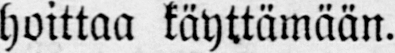hoittaa käyttämään.
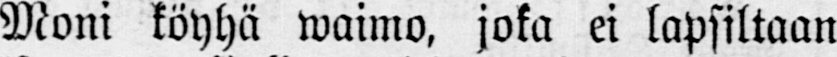Moni köyhä waimo, joka ei lapsiltaan
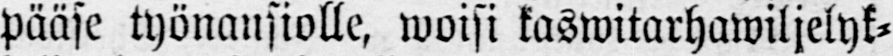pääse työnansiolle, woisi kaswitarhawiljelyk-
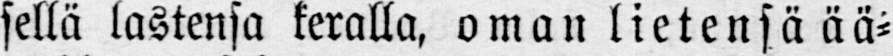sellä lastensa keralla, oman lietensä ää-
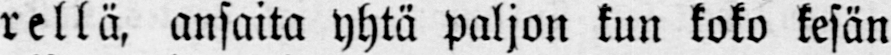rellä, ansaita yhtä paljon kun koko kesän
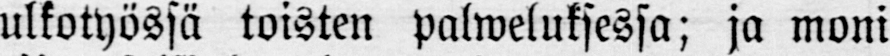ulkotyössä toisten palweluksessa; ja moni
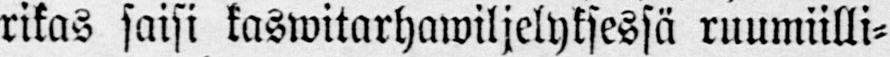rikas saisi kaswitarhawiljelyksessä ruumiilli-
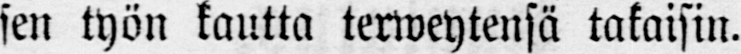sen työn kautta terweytensä takaisin.
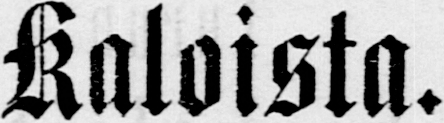Kaloista.
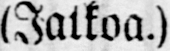(Jalkoa.)
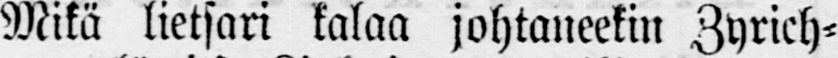Mikä lietsari kalaa johtaneekin Zyrich-
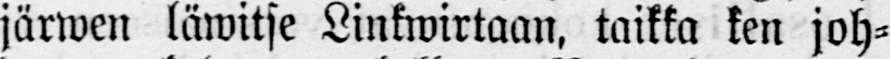järwen läwitse Linkwirtaan, taikka ken joh-
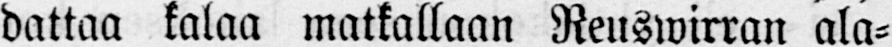dattaa kalaa matkallaan Reuswirran ala-
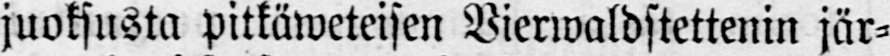juoksusta pitkäweteisen Vierwaldstettenin jär-
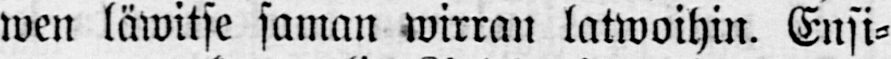wen läwitse saman wirran latwoihin. Ensi-
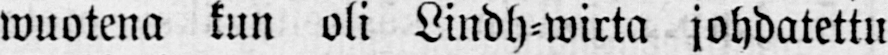wuotena kun oli Lindh-wirta johdatettu
